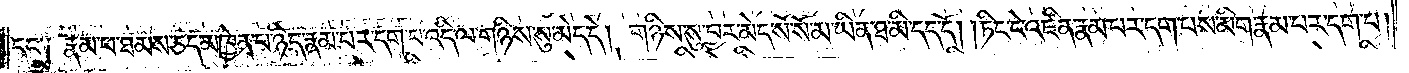དང་༑ རྣམ་པ་ཐམས་ཅད་མཁྱེན་པ་ཉིད་རྣམ་པར་དག་པ་འདི་ལ་གཉིས་སུ་མེད་དེ། གཉིས་སུ་བྱར་མེད་སོ་སོ་མ་ཡིན་ཐ་མི་དད་དོ། །ཏིང་ངེ་འཛིན་རྣམ་པར་དག་པས་མིག་རྣམ་པར་དག་པ།
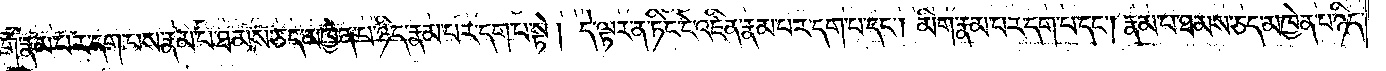མིག་རྣམ་པར་དག་པས་རྣམ་པ་ཐམས་ཅད་མཁྱེན་པ་ཉིད་རྣམ་པར་དག་པ་སྟེ། དེ་ལྟར་ན་ཏིང་ངེ་འཛིན་རྣམ་པར་དག་པ་དང༌། མིག་རྣམ་པར་དག་པ་དང༌། རྣམ་པ་ཐམས་ཅད་མཁྱེན་པ་ཉིད་
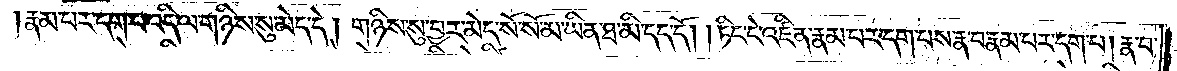རྣམ་པར་དག་པ་འདི་ལ་གཉིས་སུ་མེད་དེ། གཉིས་སུ་བྱར་མེད་སོ་སོ་མ་ཡིན་ཐ་མི་དད་དོ། །ཏིང་ངེ་འཛིན་རྣམ་པར་དག་པས་རྣ་བ་རྣམ་པར་དག་པ། རྣ་བ་
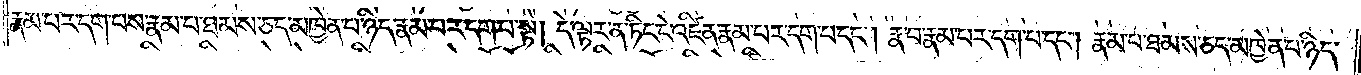རྣམ་པར་དག་པས་རྣམ་པ་ཐམས་ཅད་མཁྱེན་པ་ཉིད་རྣམ་པར་དག་པ་སྟེ། དེ་ལྟར་ན་ཏིང་ངེ་འཛིན་རྣམ་པར་དག་པ་དང༌། རྣ་བ་རྣམ་པར་དག་པ་དང༌། རྣམ་པ་ཐམས་ཅད་མཁྱེན་པ་ཉིད་
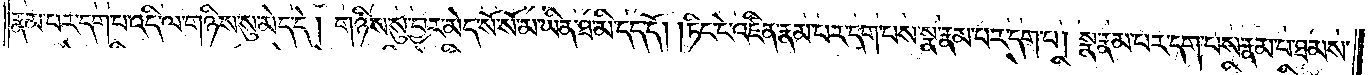རྣམ་པར་དག་པ་འདི་ལ་གཉིས་སུ་མེད་དེ། གཉིས་སུ་བྱར་མེད་སོ་སོ་མ་ཡིན་ཐ་མི་དད་དོ། །ཏིང་ངེ་འཛིན་རྣམ་པར་དག་པས་སྣ་རྣམ་པར་དག་པ། སྣ་རྣམ་པར་དག་པས་རྣམ་པ་ཐམས་
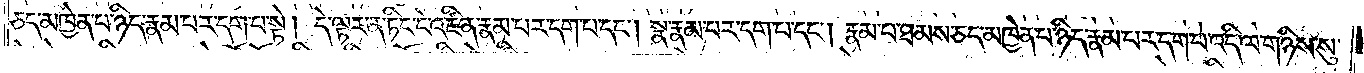ཅད་མཁྱེན་པ་ཉིད་རྣམ་པར་དག་པ་སྟེ། དེ་ལྟར་ན་ཏིང་ངེ་འཛིན་རྣམ་པར་དག་པ་དང༌། སྣ་རྣམ་པར་དག་པ་དང༌། རྣམ་པ་ཐམས་ཅད་མཁྱེན་པ་ཉིད་རྣམ་པར་དག་པ་འདི་ལ་གཉིས་སུ་
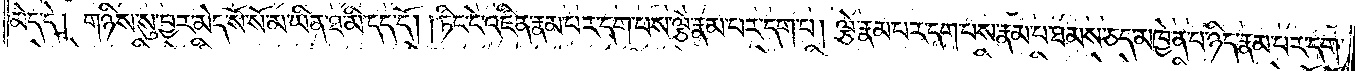མེད་དེ། གཉིས་སུ་བྱར་མེད་སོ་སོ་མ་ཡིན་ཐ་མི་དད་དོ། །ཏིང་ངེ་འཛིན་རྣམ་པར་དག་པས་ལྕེ་རྣམ་པར་དག་པ། ལྕེ་རྣམ་པར་དག་པས་རྣམ་པ་ཐམས་ཅད་མཁྱེན་པ་ཉིད་རྣམ་པར་དག་
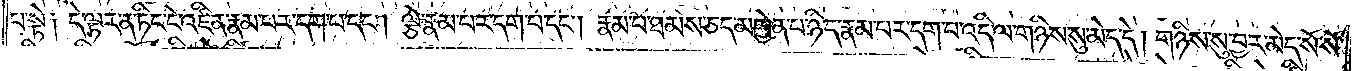པ་སྟེ༑ དེ་ལྟར་ན་ཏིང་ངེ་འཛིན་རྣམ་པར་དག་པ་དང༌། ལྕེ་རྣམ་པར་དག་པ་དང༌། རྣམ་པ་ཐམས་ཅད་མཁྱེན་པ་ཉིད་རྣམ་པར་དག་པ་འདི་ལ་གཉིས་སུ་མེད་དེ། གཉིས་སུ་བྱར་མེད་སོ་སོ་
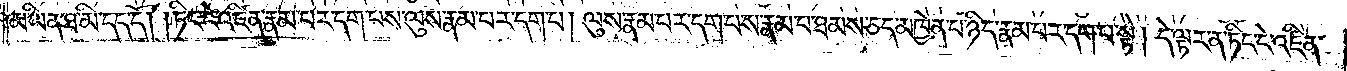མ་ཡིན་ཐ་མི་དད་དོ། །ཏིང་ངེ་འཛིན་རྣམ་པར་དག་པས་ལུས་རྣམ་པར་དག་པ། ལུས་རྣམ་པར་དག་པས་རྣམ་པ་ཐམས་ཅད་མཁྱེན་པ་ཉིད་རྣམ་པར་དག་པ་སྟེ། དེ་ལྟར་ན་ཏིང་ངེ་འཛིན་
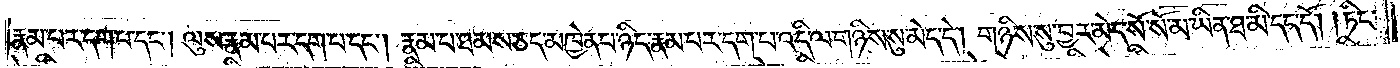རྣམ་པར་དག་པ་དང༌། ལུས་རྣམ་པར་དག་པ་དང༌། རྣམ་པ་ཐམས་ཅད་མཁྱེན་པ་ཉིད་རྣམ་པར་དག་པ་འདི་ལ་གཉིས་སུ་མེད་དེ། གཉིས་སུ་བྱར་མེད་སོ་སོ་མ་ཡིན་ཐ་མི་དད་དོ། །ཏིང་
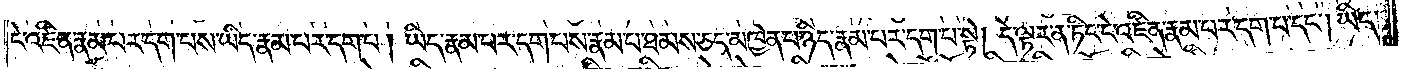ངེ་འཛིན་རྣམ་པར་དག་པས་ཡིད་རྣམ་པར་དག་པ། ཡིད་རྣམ་པར་དག་པས་རྣམ་པ་ཐམས་ཅད་མཁྱེན་པ་ཉིད་རྣམ་པར་དག་པ་སྟེ། དེ་ལྟར་ན་ཏིང་ངེ་འཛིན་རྣམ་པར་དག་པ་དང༌། ཡིད་
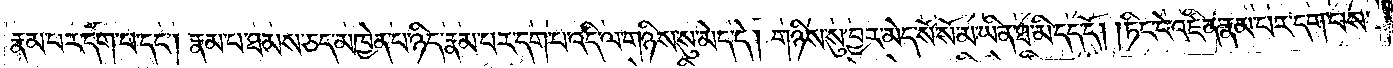རྣམ་པར་དག་པ་དང༌། རྣམ་པ་ཐམས་ཅད་མཁྱེན་པ་ཉིད་རྣམ་པར་དག་པ་འདི་ལ་གཉིས་སུ་མེད་དེ། གཉིས་སུ་བྱར་མེད་སོ་སོ་མ་ཡིན་ཐ་མི་དད་དོ། །ཏིང་ངེ་འཛིན་རྣམ་པར་དག་པས་
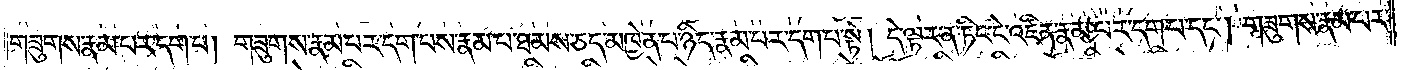གཟུགས་རྣམ་པར་དག་པ། གཟུགས་རྣམ་པར་དག་པས་རྣམ་པ་ཐམས་ཅད་མཁྱེན་པ་ཉིད་རྣམ་པར་དག་པ་སྟེ། དེ་ལྟར་ན་ཏིང་ངེ་འཛིན་རྣམ་པར་དག་པ་དང༌། གཟུགས་རྣམ་པར་
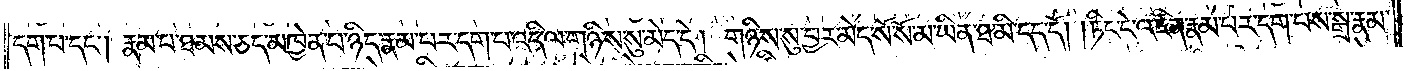དག་པ་དང༌། རྣམ་པ་ཐམས་ཅད་མཁྱེན་པ་ཉིད་རྣམ་པར་དག་པ་འདི་ལ་གཉིས་སུ་མེད་དེ། གཉིས་སུ་བྱར་མེད་སོ་སོ་མ་ཡིན་ཐ་མི་དད་དོ། །ཏིང་ངེ་འཛིན་རྣམ་པར་དག་པས་སྒྲ་རྣམ་
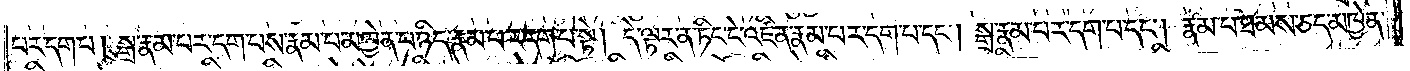པར་དག་པ། སྒྲ་རྣམ་པར་དག་པས་རྣམ་པ་ཐམས་ཅད་མཁྱེན་པ་ཉིད་རྣམ་པར་དག་པ་སྟེ། དེ་ལྟར་ན་ཏིང་ངེ་འཛིན་རྣམ་པར་དག་པ་དང༌། སྒྲ་རྣམ་པར་དག་པ་དང༌། རྣམ་པ་ཐམས་ཅད་མཁྱེན་
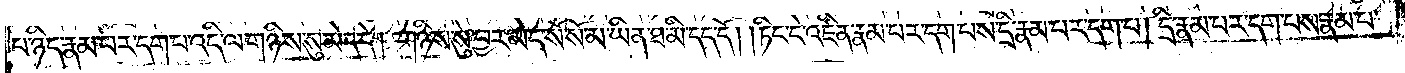པ་ཉིད་རྣམ་པར་དག་པ་འདི་ལ་གཉིས་སུ་མེད་དེ། གཉིས་སུ་བྱར་མེད་སོ་སོ་མ་ཡིན་ཐ་མི་དད་དོ། །ཏིང་ངེ་འཛིན་རྣམ་པར་དག་པས་དྲི་རྣམ་པར་དག་པ། དྲི་རྣམ་པར་དག་པས་རྣམ་པ་
